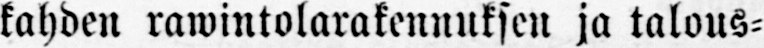kahden rawintolarakennuksen ja talous-
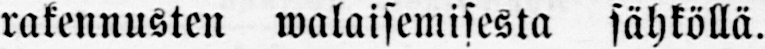rakennusten walaisemisesta sähköllä.
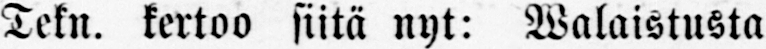Tekn. kertoo siitä nyt: Walaistusta
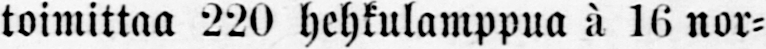toimittaa 220 hehkulamppua ä 16 nor-
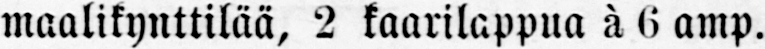maalikynttilää, 2 kaarilappua à 6 amp.
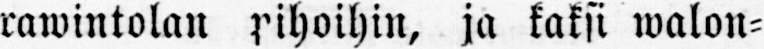rawintolan pihoihin, ja kaksi walon-
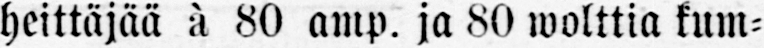heittäjää à 80 amp. ja 80 woiltia kum-
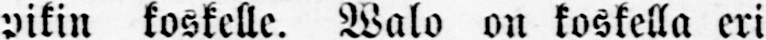pikin koskelle. Walo on koskella eri
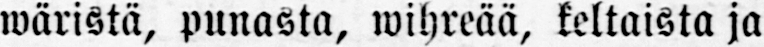wäristä, punasta, wihreää, keltaista ja
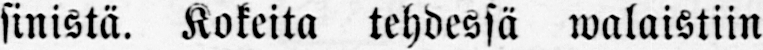sinistä. Kokeita tehdessä walaistiin
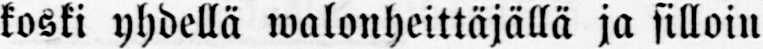koski yhdellä walonheittäjällä ja silloin
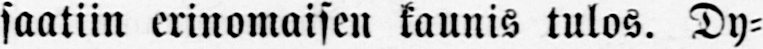saatiin erinomaisen kaunis tulos. Dy-
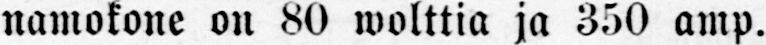namokone on 80 wolttia ja 350 amp.
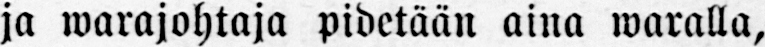ja warajohtaja pidetään aina waralla,
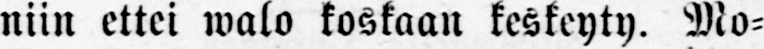niin ettei walo koskaan keskeyty. Mo-
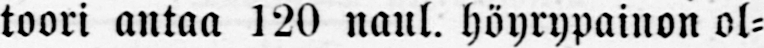toori antaa 120 naul. höyrypainon ol-
